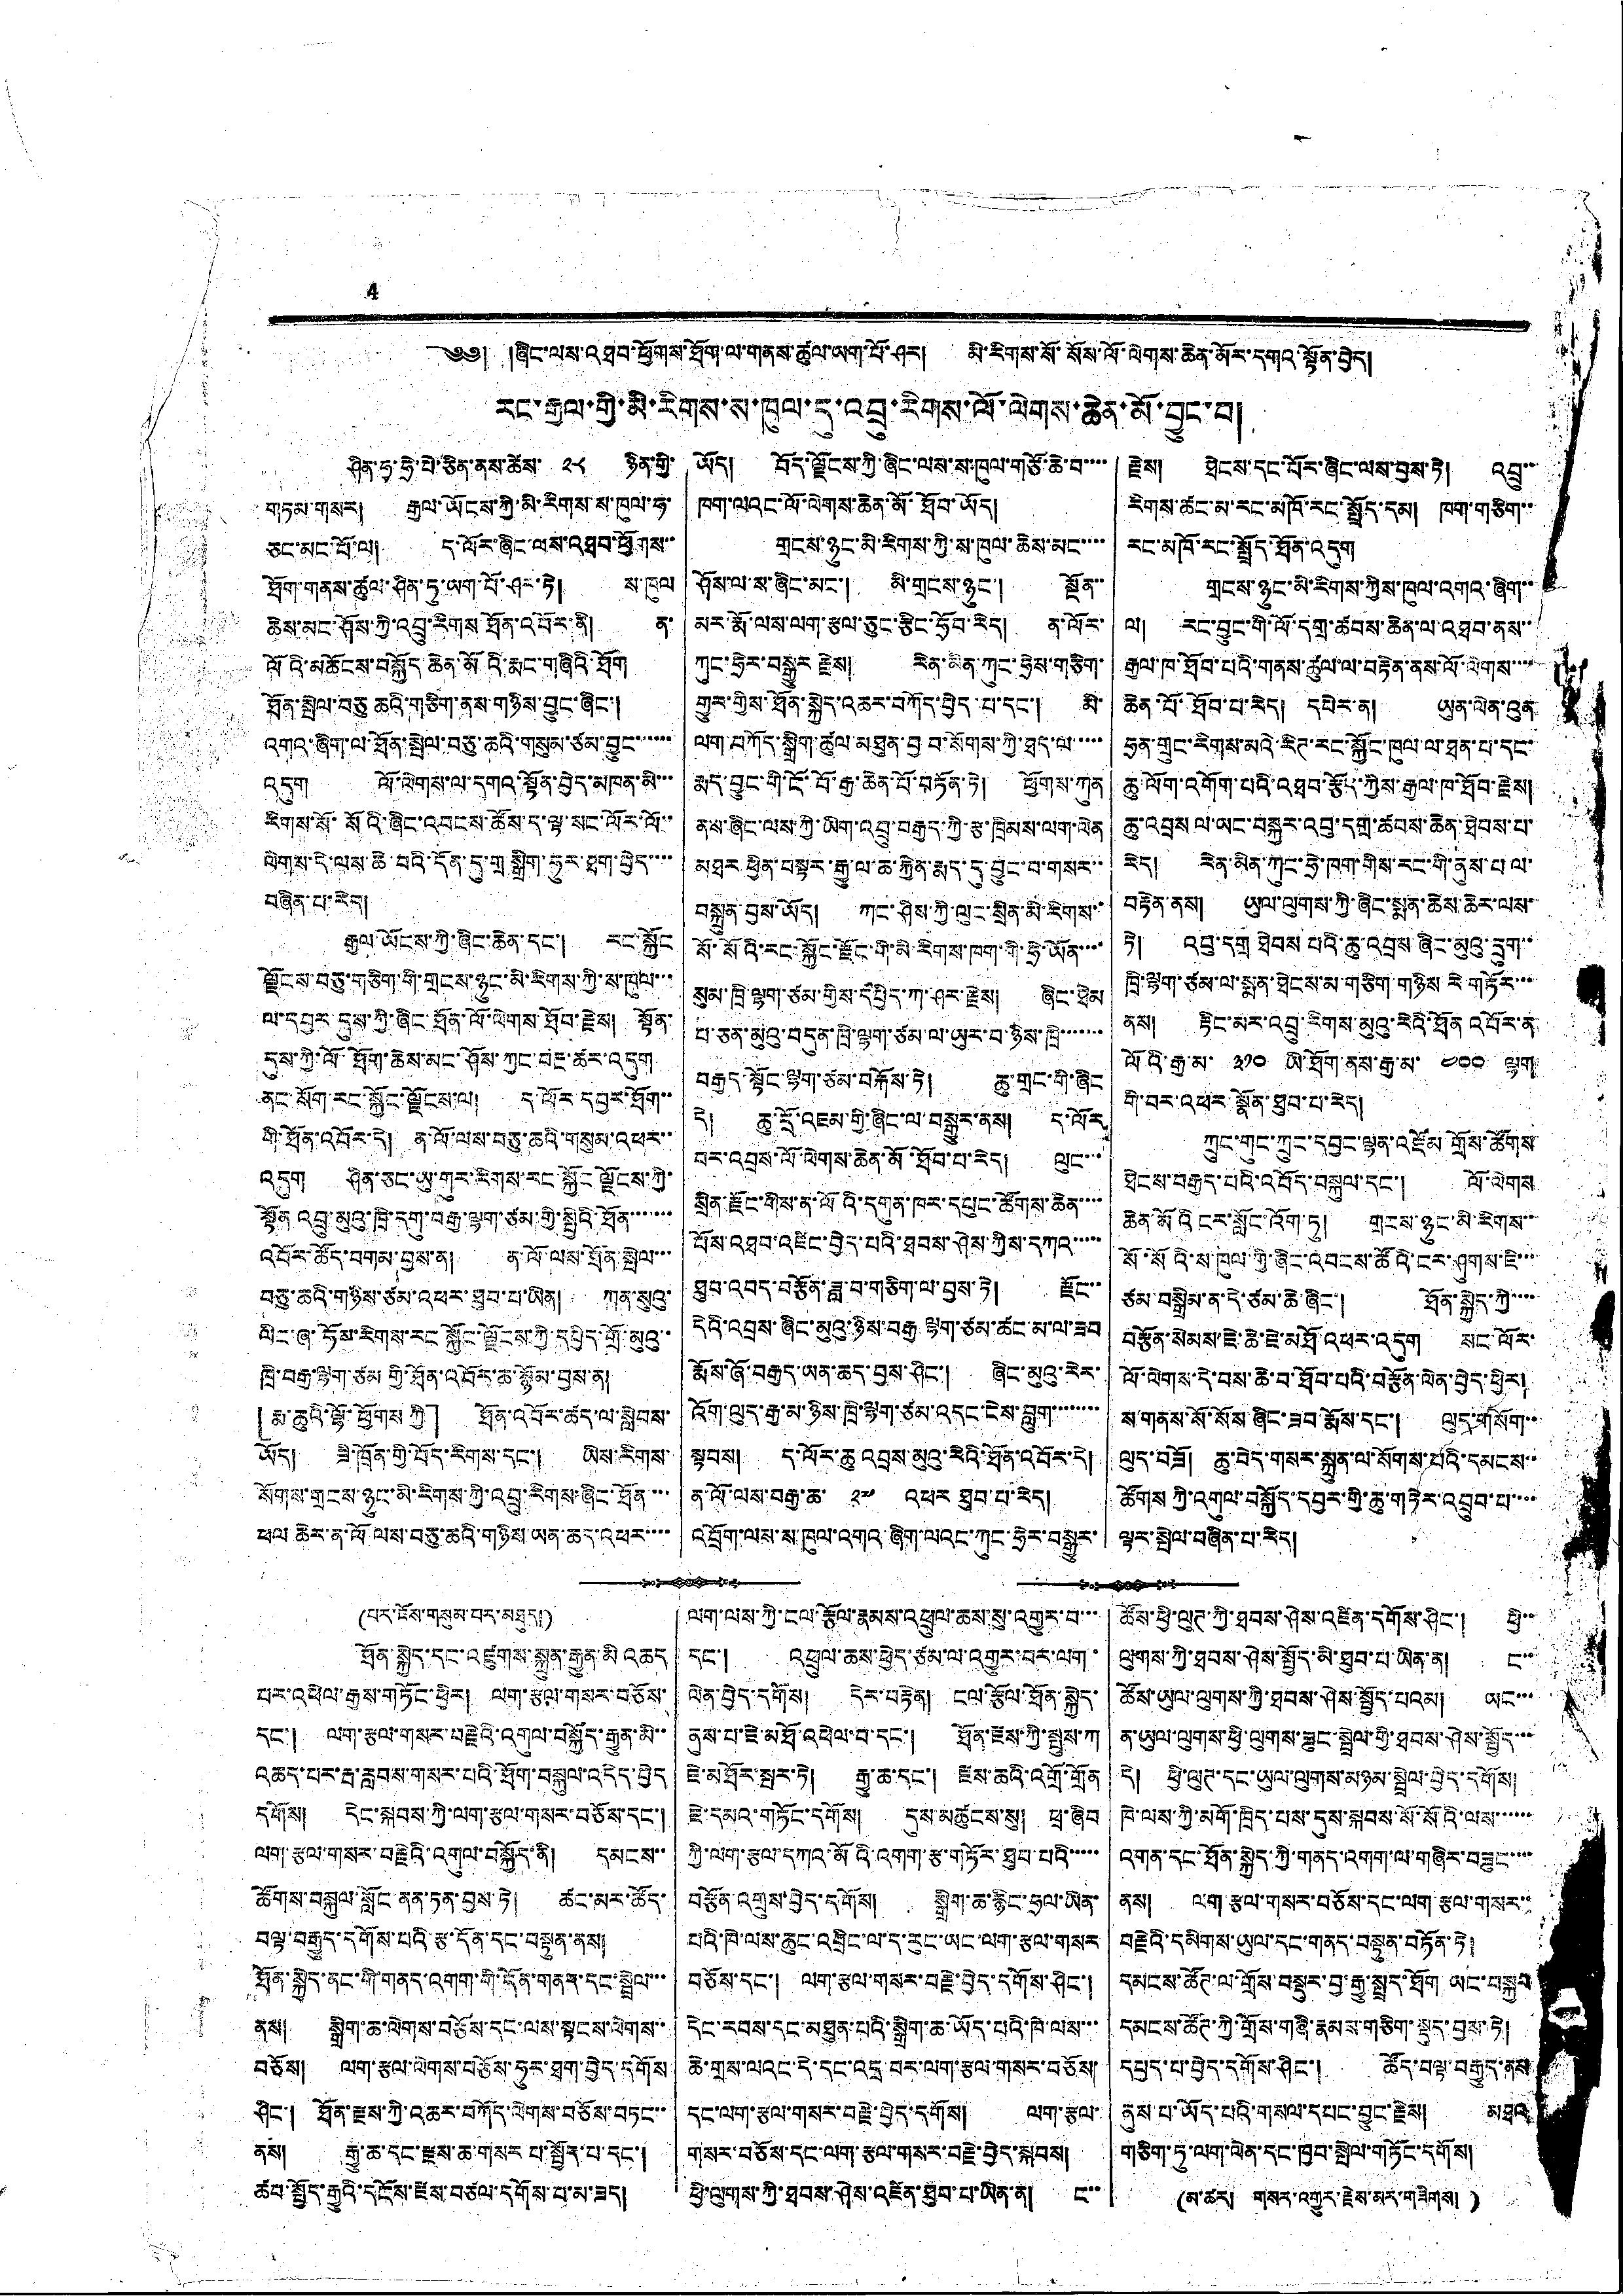4
༄༅། །ཞིང་ལས་འཐབ་ཕྱོགས་ཐོག་ལ་གནས་ཚུལ་ཡག་པོ་ཤར། མི་རིགས་སོ་སོས་ལོ་ལེགས་ཆེན་མོར་དགའ་སྟོན་བྱེད།
རང་རྒྱལ་གྱི་མི་རིགས་ས་ཁུལ་དུ་འབྲུ་རིགས་ལོ་ལེགས་ཆེན་མོ་བྱུང་བ།
ཤིན་ཧྭ་ཧྲེ་པེ་ཅིན་ནས་ཚེས་ ༢༨ ཉིན་གྱི་
གཏམ་གསར། རྒྱལ་ཡོངས་ཀྱི་མི་རིགས་ས་ཁུལ་ཧ་
ཅང་མང་པོ་ལ། ད་ལོར་ཞིང་ལས་འཐབ་ཕྱོགས་་
ཐོག་གནས་ཚུལ་ཤིན་ཏུ་ཡག་པོ་ཤར་ཏེ། ས་ཁུལ
ཆེས་མང་ཤོས་ཀྱི་འབྲུ་རིགས ཐོན་འབོར་ནི། ན་
ལོའི་མཆོངས་བསྐྱོད ཆེན་མོའི་རྨང་གཞིའི་ཐོག
ཐོན་སྤེལ་བཅུ ཆའི་གཅིག་ནས་གཉིས་བྱུང་ཞིང་།
འགའ་ཞིག་ལ་ཐོན་སྤེལ་བཅུ་ཆའི་གསུམ་ཙམ་བྱུང་་་་་་
འདུག ལོ་ལེགས་ལ་དགའ་སྟོན་བྱེད་མཁན་མི་་་
རིགས་སོ་སོའི་ཞིང་འབངས་ཚོས་ད་ལྟ་སང་ལོར་ལོ་་
ལེགས་དེ་ལས་ཆེ་བའི་དོན་དུ་གྲ་སྒྲིག་ཧུར་ཐག་བྱེད་་་་
བཞིན་པ་རེད།
རྒྱལ ཡོངས་ཀྱི་ཞིང་ཆེན་དང་། རང་སྐྱོང
ལྗོངས་བཅུ་གཅིག་གི་གྲངས་ཉུང་མི་རིགས་ཀྱི་ས་ཁུལ་་་
ལ་དབྱར དུས་ཀྱི་ཞིང་ཐོན་ལོ་ལེགས་ཐོབ་རྗེས། སྟོན་
དུས་ཀྱི་ལོ་ཐོག་ཆེས་མང་ཤོས་ཀྱང་བརྔ་ཚར་འདུག
ནང་སོག་རང་སྐྱོང་ལྗོངས་ལ། ད་ལོར་དབྱར་ཐོག་་
གི་ཐོན་འབོར་དེ། ན་ལོ་ལས་བཅུ་ཆའི་གསུམ་འཕར་་
འདུག ཤིན་ཅང་ཡུ་གུར་རིགས་རང སྐྱོང ལྗོངས་ཀྱི་
སྟོན འབྲུ་མུའུ་ཁྲི་དགུ་བརྒྱ་ལྷག་ཙམ་གྱི་སྤྱིའི་ཐོན་་་་་་་
འབོར་ཚོད་བགམ་བྱས་ན། ན་ལོ་ལས་ཐོན་སྤེལ་་་
བཅུ་ཆའི་གཉིས་ཙམ་འཕར་ཐུབ་པ་ཡིན། ཀན་སུའུ་
ལིང་ཞ་ཧོས་རིགས་རང སྐྱོང་ལྗོངས་ཀྱི་དཔྱིད་གྲོ་མུའུ་་
ཁྲི་བརྒྱ་ལྷག་ཙམ གྱི་ཐོན་འབོར་ཆ་སྙོམ་བྱས་ན།
「རྨ་ཆུའི་ལྷོ་ཕྱོགས ཀྱི」 ཐོན་འབོར་ཚད་ལ་སླེབས་
ཡོད། ཟི་ཁྲོན་གྱོ་བོད་རིགས་དང་། ཡིས་རིགས་
སོགས་གྲངས་ཉུང་མི་རིགས་ཀྱི་འབྲུ་རིགས་ཞིང་ཐོན་་་
ཕལ ཆེར་ན་ལོ ལས་བཅུ་ཆའི་གཉིས་ཡན་ཆད་འཕར་་་་
ཡོད། བོད་ལྗོངས་ཀྱི་ཞིང་ལས་ས་ཁུལ་གཙོ་ཆེ་བ་་་་
ཁག་ལའང་ལོ་ལེགས་ཆེན་མོ་ཐོབ་ཡོད།
གྲངས་ཉུང་མི་རིགས་ཀྱི་ས་ཁུལ་ཆེས་མང་་་་
ཤོས་ལ་ས་ཞིང་མང་། མི་གྲངས་ཉུང་། སྔོན་་
མར་རྨོ་ལས་ལག་རྩལ་ཅུང་རྩིང་ཧྲོབ་རེད། ན་ལོར་
ཀུང་ཧྲེར་བསྒྱུར་རྗེས། རེན་མིན་ཀུང་ཧྲེས་གཅིག་
གྱུར་གྱིས་ཐོན་སྐྱེད་འཆར་བཀོད་བྱེད་པ་དང་། མི་
ལག་བཀོད་སྒྲིག་ཚུལ་མཐུན་བྱ བ་སོགས་ཀྱི་ཐད་ལ་་་་་
རྨད་བྱུང་གི་ངོ་བོ་རྒྱ་ཆེན་པོ་བཏོན་ཏེ། ཕྱོགས་ཀུན
ནས་ཞིང་ལས་ཀྱི་ཡིག་འབྲུ་བརྒྱད་ཀྱི་རྩ་ཁྲིམས་ལག་ལེན
མཐར ཕྱིན་བསྟར་རྒྱུ་ལ་ཆ་རྐྱེན་རྨད་དུ་བྱུང་བ་གསར་་
བསྐྲུན་བྱས་ཡོད། ཀང་ཤིས་ཀྱི་ལུང་སྲིན་མི་རིགས་་
སོ་སོའི་རང་སྐྱོང་རྫོང་གི་མི་རིགས་ཁག་གི་ཧྲེ་ཡོན་་་་
སུམ་ཁྲི་ལྷག་ཙམ་གྱིས་དཔྱིད་ཀ་ཤར་རྗེས། ཞིང་ཐེམ
པ་ཅན་མུའུ་བདུན་ཁྲི་ལྷག་ཙམ་ལ་ཡུར་བ་ཉིས་ཁྲི་་་་་་་
བརྒྱད་སྟོང་ལྷག་ཙམ་བརྐོས་ཏེ། ཆུ་གྲང་གི་ཞིང
དེ། ཆུ་དྲོ་འཇམ་གྱི་ཞིང་ལ་བསྒྱུར་ནས། ད་ལོར
བར་འབྲས་ལོ་ལེགས་ཆེན་མོ་ཐོབ་པ་རེད། ལུང་་་
སྲིན་རྫོང་གིས་ན་ལོའི་དགུན་ཁར་དཔུང་ཚོགས་ཆེན་་་་
པོས་འཐབ་འཛིང་བྱེད་པའི་ཐབས་ཤེས་ཀྱིས་དཀའ་་་་་
ཐུབ་འབད་བརྩོན་ཟླ་བ་གཅིག་ལ་བྱས་ཏེ། རྫོང་་
དེའི་འབྲས་ཞིང་མུའུ་ཉིས་བརྒྱ ལྷག་ཙམ་ཚང་མ་ལ་ཟབ
རྨོས་ཞོ་བརྒྱད་ཡན་ཆད་བྱས་ཤིང་། ཞིང་མུའུ་རེར་
འོག་ལུད་རྒྱ་མ་ཉིས་ཁྲི་ལྷག་ཙམ་འདང་ངེས་བླུག་་་་་་་་
སྟབས། ད་ལོར་ཆུ འབྲས་མུའུ་རེའི་ཐོན་འབོར་དེ།
ན་ལོ་ལས་བརྒྱ་ཆ་ ༢༧ འཕར ཐུབ་པ་རེད།
འབྲོག་ལས་ས་ཁུལ་འགའ ཞིག་ལའང་ཀུང་ཧྲེར་བསྒྱུར་
རྗེས། ཐེངས་དང་པོར་ཞིང་ལས་བྱས་ཏེ། འབྲུ་་
རིགས་ཚང་མ་རང་མཁོ་རང་སྤྲོད་དམ། ཁག་གཅིག་་
རང་མཁོ་རང་སྤྲོད་ཐོན་འདུག
གྲངས་ཉུང་མི་རིགས་ཀྱིས་ཁུལ་འགའ་ཞིག་་
ལ། རང་བྱུང་གི་ལོ་དགྲ་ཚབས་ཆེན་ལ་འཐབ་ནས་་
རྒྱལ་ཁ་ཐོབ་པའི་གནས་ཚུལ་ལ་བརྟེན་ནས་ལོ་ལེགས་་་་
ཆེན་པོ་ཐོབ་པ་རེད། དཔེར་ན། ཡུན་ལེན་འུན
ཧྲན་གྲུང་རིགས་མའི་རིཊ་རང་སྐྱོང་ཁུལ་ལ་ཐན་པ་དང་
ཆུ་ལོག་འགོག་པའི་འཐབ་རྩོད་ཀྱིས་རྒྱལ་ཁ་ཐོབ་རྗེས།
ཆུ་འབྲས ལ་ཡང་བསྐྱར་འབུ་དགྲ་ཚབས་ཆེན་ཐེབས་པ་
རེད། རེན་མིན་ཀུང་ཧྲེ་ཁག་གིས་རང་གི་ནུས་པ ལ་
བརྟེན་ནས། ཡུལ་ལུགས་ཀྱི་ཞིང་སྨན་ཆེས་ཆེར་ལས་་
ཏེ། འབུ་དགྲ ཐེབས པའི་ཆུ་འབྲས་ཞིང་མུའུ་དྲུག་་
ཁྲི་ལྷག་ཙམ་ལ་སྨན་ཐེངས་མ་གཅིག་གཉིས རེ་གཏོར་་་
ནས། རྟིང་མར་འབྲུ་རིགས་མུའུ་རེའི་ཐོན འབོར་ན
ལོའི་རྒྱ་མ་ ༣༡༠ ཡི་ཐོག་ནས་རྒྱ་མ་ ༤༠༠ ལྷག
གི་བར་འཕར་སྣོན་ཐུབ་པ་རེད།
ཀྲུང་གུང་ཀྲུང་དབྱང་ལྷན་འཛོམ གྲོས་ཚོགས་
ཐེངས་བརྒྱད་པའི་འབོད་བསྐུལ་དང་། ལོ་ལེགས
ཆེན་མོའི ངར་སློང་འོག་ཏུ། གྲངས་ཉུང་མི་རིགས་་
སོ་སོའི་ས་ཁུལ་གྱི་ཞིང་འབངས་ཚོའི་ངར་ཤུགས་ཇི་་་
ཙམ་བསྒྲིམ་ན་དེ་ཙམ་ཆེ་ཞིང་། ཐོན་སྐྱེད་ཀྱི་་་་
བརྩོན་སེམས་ཇེ་ཆེ་ཇེ་མཐོ འཕར་འདུག སང་ལོར་
ལོ་ལེགས་དེ་བས་ཆེ་བ་ཐོབ་པའི་བརྩོན་ལེན་བྱེད་ཕྱིར།
ས་གནས་སོ་སོས་ཞིང་ཟབ་རྨོས་དང་། ལུད་གསོག་་
ལུད་བཟོ། ཆུ་བེད་གསར་སྐྲུན་ལ་སོགས་པའི་དམངས་་
ཚོགས ཀྱི་འགུལ་བསྐྱོད་དབྱར་གྱི་ཆུ་གཏེར་འབྲུབ་པ་་་་
ལྟར་སྤེལ་བཞིན་པ་རེད།
(པར་ངོས་གསུམ་པར་མཐུད།)
ཐོན་སྐྱེད་དང་འཛུགས་སྐྲུན་རྒྱུན་མི འཆད
པར་འཕེལ་རྒྱས་གཏོང་ཕྱིར། ལག་རྩལ་གསར་བཅོས་
དང་། ལག་རྩལ་གསར་བརྗེའི་འགུལ་བསྐྱོད་རྒྱུན་མི་་
འཆད་པར་རྦ་རླབས་གསར་པའི་ཐོག་བསྐུལ་འདེད་བྱེད
དགོས། དེང་སྐབས་ཀྱི་ལག་རྩལ་གསར་བཅོས་དང་།
ལག་རྩལ་གསར་བརྗེའི་འགུལ་བསྐྱོད་ནི། དམངས་་
ཚོགས་བསྐུལ་སློང་ནན་ཏན་བྱས་ཏེ། ཚང་མར་ཚོད་
བལྟ་བརྒྱུད་དགོས་པའི་རྩ་དོན་དང་བསྟུན་ནས།
ཐོན་སྐྱེད་ནང་གི་གནད་འགག་གི་དོན་གནད་དང་སྦྲེལ་་་
ནས། སྒྲིག་ཆ་ལེགས་བཅོས་དང་ལས་སྟངས་ལེགས་་
བཅོས། ལག་རྩལ་ལེགས་བཅོས་ཧུར་ཐག་བྱེད་དགོས
ཤིང་། ཐོན་རྫས་ཀྱི་འཆར་བཀོད་ལེགས་བཅོས་བཏང་་
ནས། རྒྱུ་ཆ་དང་རྫས་ཆ་གསར པ་སྤྱོད་པ་དང་།
ཚབ་སྤྱོད་རྒྱུའི་དངོས་རྫས་བཙལ་དགོས་པ་མ་ཟད།
ལག་ལས་ཀྱི་ངལ་རྩོལ་རྣམས་འཕྲུལ་ཆས་སུ་འགྱུར་བ་་་
དང་། འཕྲུལ་ཆས་ཕྱེད་ཙམ་ལ་འགྱུར་བར་ལག་
ལེན་བྱེད་དགོས། དེར་བརྟེན། ངལ་རྩོལ་ཐོན་སྐྱེད་
ནུས་པ་ཇེ་མཐོ་འཕེལ་བ་དང་། ཐོན་རྫས་ཀྱི་སྤུས་ཀ
ཇེ་མཐོར་སྦར་ཏེ། རྒྱུ་ཆ་དང་། རྫས་ཆའི་འགྲོ་གྲོན
ཇེ་དམའ་གཏོང་དགོས། དུས་མཚུངས་སུ། ཕྲ་ཞིབ
ཀྱི་ལག་རྩལ་དཀའ་མོའི་འགག་རྩ་གཏོར་ཐུབ་པའི་་་་་
བརྩོན་འགྲུས་བྱེད་དགོས། སྒྲིག་ཆ་རྙིང་ཧྲལ་ཡིན་
པའི་ཁེ་ལས་ཆུང་འབྲིང་ལ་ད་རུང་ཡང་ལག་རྩལ་གསར
བཅོས་དང་། ལག་རྩལ་གསར་བརྗེ་བྱེད་དགོས་ཤིང་།
དེང་རབས་དང་མཐུན་པའི་སྒྲིག་ཆ་ཡོད་པའི་ཁེ་ལས་་་
ཆེ་གྲས་ལའང་དེ་དང་འདྲ་བར་ལག་རྩལ་གསར་བཅོས་
དང་ལག་རྩལ་གསར་བརྗེ་བྱེད་དགོས། ལག་རྩལ་
གསར་བཅོས་དང་ལག་རྩལ་གསར་བརྗེ་བྱེད་སྐབས།
ཕྱི་ལུགས་ཀྱི་ཐབས་ཤེས་འཛིན་ཐུབ་པ་ཡིན་ན། ང་་
ཚོས་ཕྱི་ལུཊ་ཀྱི་ཐབས་ཤེས་འཛིན་དགོས་ཤིང་། ཕྱི་་
ལུགས་ཀྱི་ཐབས་ཤེས་སྤྱོད་མི་ཐུབ་པ་ཡིན་ན། ང་་
ཚོས་ཡུལ་ལུགས་ཀྱི་ཐབས་ཤེས་སྤྱོད་པའམ། ཡང་་་
ན་ཡུལ་ལུགས་ཕྱི་ལུགས་ཟུང་སྦྲེལ་གྱི་ཐབས་ཤེས་སྤྱོད་་་
དེ། ཕྱི་ལུཊ་དང་ཡུལ་ལུགས་མཉམ་སྦྲེལ་བྱེད་དགོས།
ཁེ་ལས་ཀྱི་མགོ་ཁྲིད་པས་དུས་སྐབས་སོ་སོའི་ལས་་་་་་
འགན་དང་ཐོན་སྐྱེད་ཀྱི་གནད་འགག་ལ་གཞིར་བཟུང་་་་
ནས། ལག རྩལ་གསར་བཅོས་དང་ལག་རྩལ་གསར་་
བརྗེའི་དམིགས་ཡུལ་དང་གནད་བསྟུན་བཏོན་ཏེ།
དམངས་ཚོཊ་ལ་གྲོས་བསྡུར་བྱ་རྒྱུ་སྤྲད་ཐོག ཡང་བསྐྱར
དམངས་ཚོཊ་ཀྱི་གྲོས་གཞི་རྣམས་གཅིག་སྡུད་བྱས་ཏེ།
དཔྱད་པ་བྱེད་དགོས་ཤིང་། ཚོད་བལྟ་བརྒྱུད་ནས
ནུས་པ་ཡོད་པའི་གསལ་དཔང་བྱུང་རྗེས། མཐའ
གཅིག་ཏུ་ལག་ལེན་དང་ཁྱབ་སྤེལ་གཏོང་དགོས།
(མ་ཚར། གསར་འགྱུར་རྗེས་མར་གཟིགས།)
